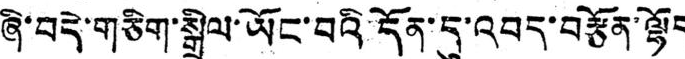ཞི་བདེ་གཅིག་སྒྲིལ་ཡོང་བའི་དོན་དུ་འབད་བརྩོན་ལྷོད
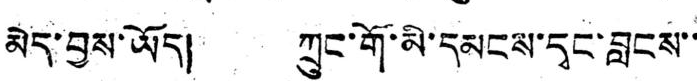མེད་བྱས་ཡོད། ཀྲུང་གོ་མི་དམངས་དྭང་བླངས་་
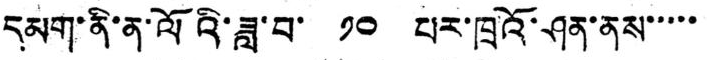དམག་ནི་ན་ལོའི་ཟླ་བ་ ༡༠ པར་ཁྲའོ་ཤན་ནས་་་་་
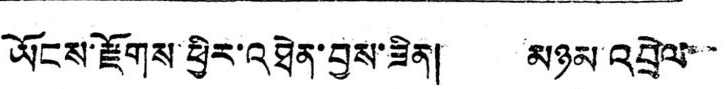ཡོངས་རྫོགས ཕྱིར་འཐེན་བྱས་ཟིན། མཉམ འབྲེལ་་
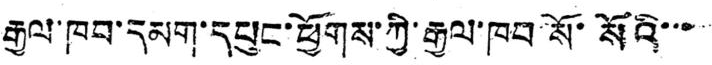རྒྱལ་ཁབ་དམག་དཔུང་ཕྱོགས་ཀྱི་རྒྱལ་ཁབ་སོ་སོའི་་་
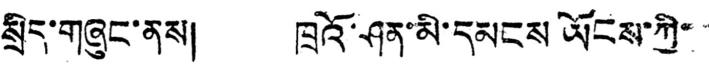སྲིད་གཞུང་ནས། ཁྲའོ་ཤན་མི་དམངས ཡོངས་ཀྱི་
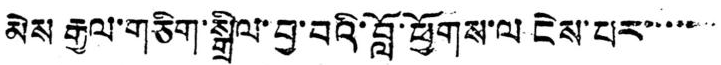མེས རྒྱལ་གཅིག་སྒྲིལ་བྱ་བའི་བློ་ཕྱོགས་ལ ངེས་པར་་་་་་་
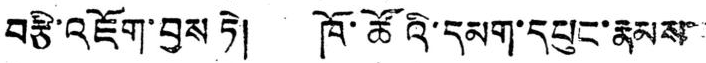བརྩི་འཇོག་བྱས ཏེ། ཁོ་ཚོའི་དམག་དཔུང་རྣམས་་
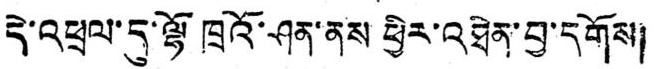དེ་འཕྲལ་དུ་ལྷོ ཁྲའོ་ཤན་ནས ཕྱིར་འཐེན་བྱ་དགོས།
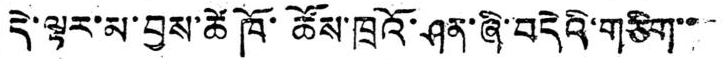དེ་ལྟར་མ་བྱས་ཚེ ཁོ་ཚོས་ཁྲའོ་ཤན་ཞི་བདེའི་གཅིག་་
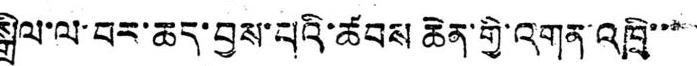སྒྲིལ་ལ་བར་ཆད་བྱས་པའི་ཚབས ཆེན་གྱི་འགན་འཁྲི་་་་
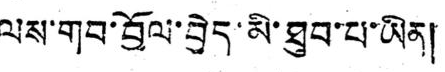ལས་གབ་བྱོལ་བྱེད་མི་ཐུབ་པ་ཡིན།
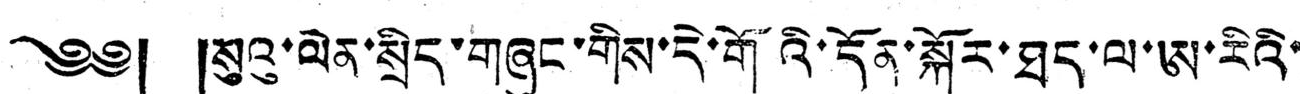༄༅། །སུའུ་ལེན་སྲིད་གཞུང་གིས་དེ་གོའི་དོན་སྐོར་ཐད་ལ་ཨ་རིའི་
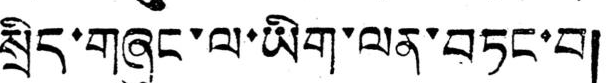སྲིད་གཞུང་ལ་ཡིག་ལན་བཏང་བ།
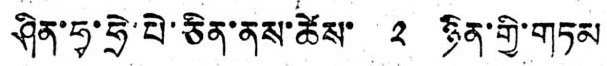ཤིན་ཧྭ་ཧྲེ་པེ་ཅིན་ནས་ཚེས་ ༢ ཉིན་གྱི་གཏམ
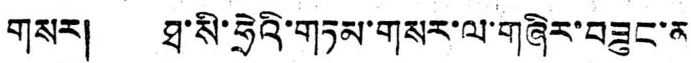གསར། ཐ་སི་ཧྲེའི་གཏམ་གསར་ལ་གཞིར་བཟུང་ན།
